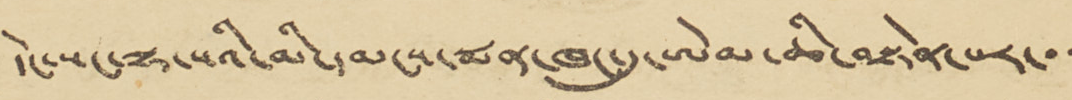དེང་སང་ལྷ་སའི་མི་དམངས་སྨན་ཁང་དུ་ཨེམ་ཆི་བསྟེན་པར་་་
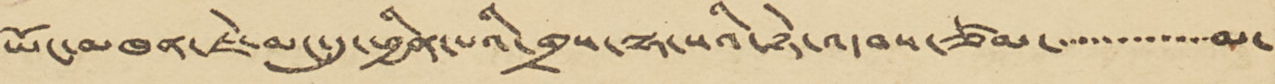ཡོང་མཁན་ཇེ་མང་དུ་ཕྱིན་པའི་གྲས་ལྷ་སའི་ཉེ་འདབས་ཙམ་་་་་་་་་་་་་མ་
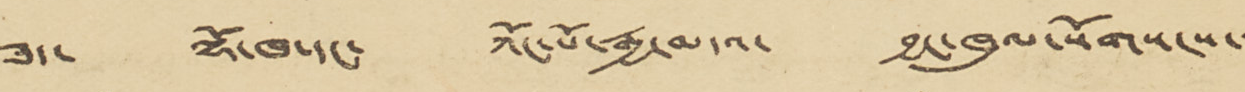ཟད་ ལྷོ་ཁ་དང་ ཀོང་པོ་རྒྱ་མདའ་ བྱང་ཁུལ་སོགས་ས་་
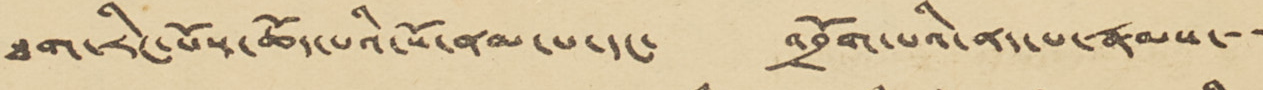ཐག་རིང་པོས་ཆོད་པའི་སོ་ནམ་པ་དང་ འབྲོག་པའི་ནད་པ་རྣམས་་་
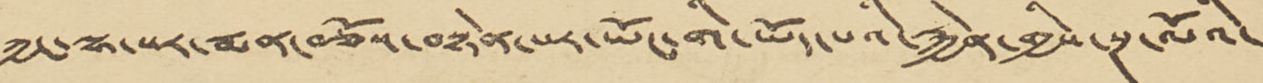ཀྱང་ལྷ་སར་སྨན་བཅོས་བསྟེན་པར་ཡོང་གི་ཡོད་པའི་རྐྱེན་གྱིས་སྔ་ལོའི་
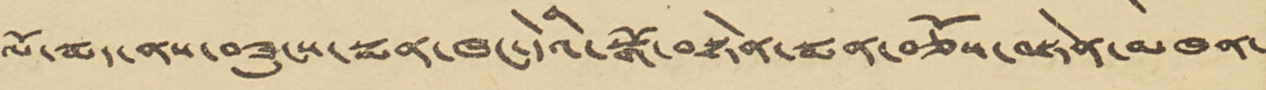ལོ་སྨད་ནས་བཟུངས་སྨན་ཁང་དེའི་སྒོ་བསྟེན་སྨན་བཅོས་བསྟེན་མཁན་
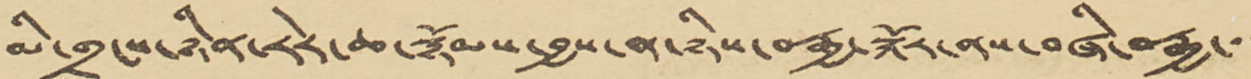མི་གྲངས་ཉིན་རེར་ཆ་སྙོམས་བྱས་ན་ཉིས་བརྒྱ་སྐོར་ནས་བཞི་བརྒྱ་་་
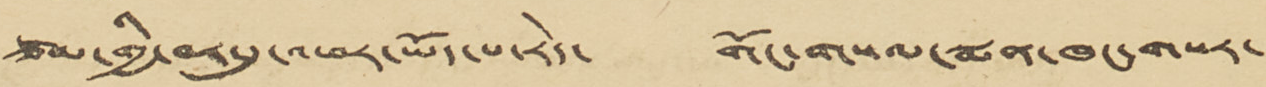ཙམ་གྱི་བར་དུ་འཕར་ཡོད་པ་རེད་ གོང་གསལ་སྨན་ཁང་གསར་
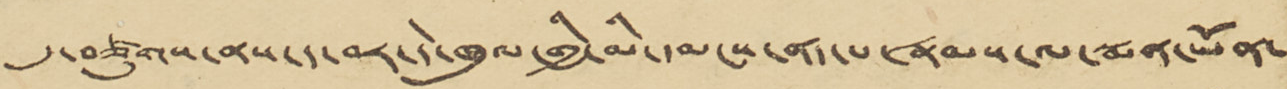དུ་བཙུགས་ནས་ད་བར་དེ་ཁུལ་གྱི་མི་དམངས་ནད་པ་རྣམས་ལ་སྨན་ཡོན་
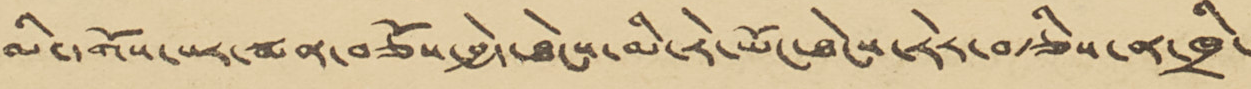མི་དགོས་པར་སྨན་བཅོས་བྱེད་ཐེངས་མི་རེ་ཡོང་ཐེངས་རེར་བརྩིས་ན་ཁྲི་་
